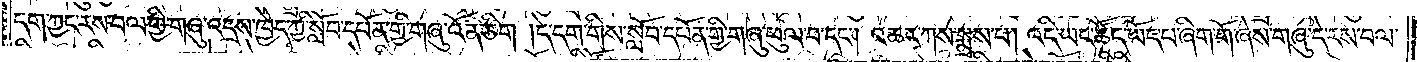དག་ཀྱང་རས་བལ་གྱི་གཞུ་འདྲས་ཁྱེད་ཀྱི་སློབ་དཔོན་གྱི་གཞུ་འོན་ཅིག །དེ་དག་གིས་སློབ་དཔོན་གྱི་གཞུ་ཕུལ་བ་དང༌། འཆར་ཀས་སྨྲས་པ། འདི་ཡང་ཚོད་ཡོད་པ་ཞིག་གོ་ཞེས་གཞུ་དེ་རས་བལ་
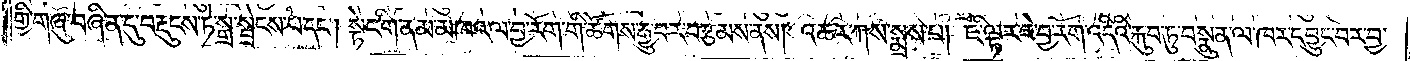གྱི་གཞུ་བཞིན་དུ་བརྡུངས་ཏེ་སྒྲ་སྦྲེངས་པ་དང༌། སྟེང་གི་ནམ་མཁའ་ལ་བྱ་རོག་གི་ཚོགས་རྒྱུ་བར་བརྩམས་ནས། འཆར་ཀས་སྨྲས་པ། ཇི་ལྟར་ཇེ་བྱ་རོག་འདིའི་རྐུབ་ཏུ་བསྣུན་ལ་ཁར་དབྱུང་བར་བྱ་
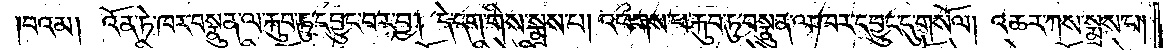བའམ། འོན་ཏེ་ཁར་བསྣུན་ལ་རྐུབ་ཏུ་དབྱུང་བར་བྱ། དེ་དག་གིས་སྨྲས་པ། འཕགས་པ་རྐུབ་ཏུ་བསྣུན་ལ་ཁར་དབྱུང་དུ་གསོལ། འཆར་ཀས་སྨྲས་པ།
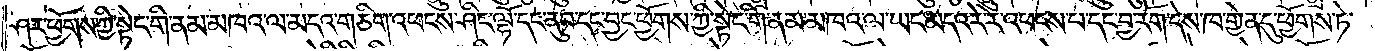ཤར་ཕྱོགས་ཀྱི་སྟེང་གི་ནམ་མཁའ་ལ་མདའ་གཅིག་འཕངས་ཤིང་ལྷོ་དང་ནུབ་དང་བྱང་ཕྱོགས་ཀྱི་སྟེང་གི་ནམ་མཁའ་ལ་ཡང་མདའ་རེ་རེ་འཕངས་པ་དང་བྱ་རོག་དེས་ཁ་གྱེན་དུ་ཕྱོགས་ཏེ་
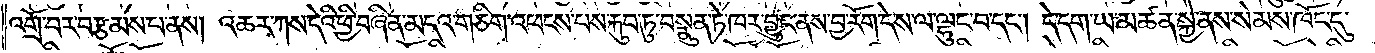འགྲོ་བར་བརྩམས་པ་ནས། འཆར་ཀས་དེའི་ཕྱི་བཞིན་མདའ་གཅིག་འཕངས་པས་རྐུབ་ཏུ་བསྣུན་ཏེ་ཁར་བྱུང་ནས་བྱ་རོག་དེས་ལ་ལྷུང་བ་དང༌། དེ་དག་ཡ་མཚན་སྐྱེ་ནས་སེམས་ཁོང་དུ་
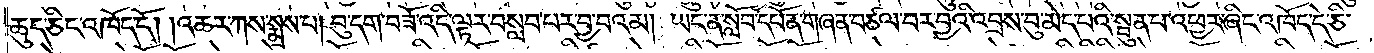ཆུད་ཅིང་འཁོད་དོ། །འཆར་ཀས་སྨྲས་པ། བུ་དག་བཟོ་འདི་ལྟར་བསླབ་པར་བྱ་བའམ། ཡང་ན་སློབ་དཔོན་གཞན་བཙལ་བར་བྱའི་འབྲས་བུ་མེད་པའི་སྦུན་པ་འཕྱར་ཞིང་འཁོད་དེ་ཅི་
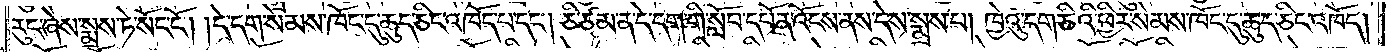རུང་ཞེས་སྨྲས་ཏེ་སོང་ངོ༌། །དེ་དག་སེམས་ཁོང་དུ་ཆུད་ཅིང་འཁོད་པ་དང༌། ཅི་ཙམ་ན་དེ་དག་གི་སློབ་དཔོན་འོངས་ནས་དེས་སྨྲས་པ། ཁྱེའུ་དག་ཅིའི་ཕྱིར་སེམས་ཁོང་དུ་ཆུད་ཅིང་འཁོད།
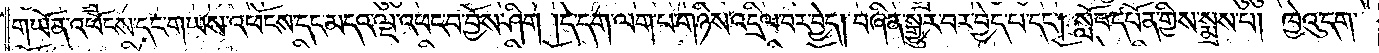གཡོན་འཕོངས་དང་གཡས་འཕོངས་དང་མདའ་ལྔ་འཕང་བ་བྱོས་ཤིག །དེ་དག་ལག་པ་གཉིས་འདྲིལ་བར་བྱེད། བཞིན་སྒྱུར་བར་བྱེད་པ་དང༌། སློབ་དཔོན་གྱིས་སྨྲས་པ། ཁྱེའུ་དག་
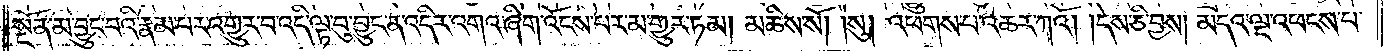སྔོན་མ་བྱུང་བའི་རྣམ་པར་འགྱུར་བ་འདི་ལྟ་བུ་བྱུང་ན་འདིར་འགའ་ཞིག་འོངས་པར་མ་གྱུར་ཏམ། མཆིས་སོ། །སུ། འཕགས་པ་འཆར་ཀའོ། །དེས་ཅི་བྱས། མདའ་ལྔ་འཕངས་པ་
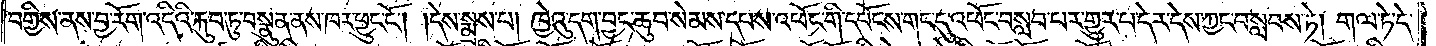བགྱིས་ནས་བྱ་རོག་འདིའི་རྐུབ་ཏུ་བསྣུན་ནས་ཁར་ཕྱུང་ངོ༌། །དེས་སྨྲས་པ། ཁྱེའུ་དག་བྱང་ཆུབ་སེམས་དཔས་འཕོང་གི་དཔོང་ས་གང་དུ་འཕོང་བསླབ་པར་གྱུར་བ་དེར་དེས་ཀྱང་བསླབས་ཏེ། གལ་ཏེ་དེ་
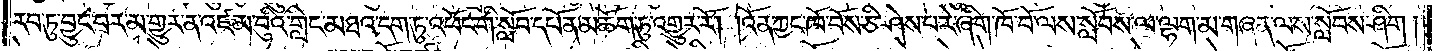རབ་ཏུ་བྱུང་བར་མ་གྱུར་ན་འཛམ་བུའི་གླིང་མཐའ་དག་ཏུ་འཕོང་གི་སློབ་དཔོན་མཆོག་ཏུ་འགྱུར་རོ། །འོན་ཀྱང་ཁོ་བོས་ཅི་ཤེས་པ་རེ་ཞིག་ཁོ་བོ་ལས་སློབས་ལ་ལྷག་མ་གཞན་ལས་སློབས་ཤིག །
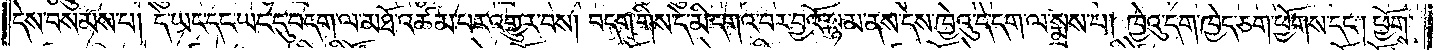དེས་བསམས་པ། དེ་ཡང་དང་ཡང་དུ་བདག་ལ་མཐོ་འཚམ་པར་འགྱུར་བས། བདག་གིས་དེ་མི་དགའ་བར་བྱའོ་སྙམ་ནས་དེས་ཁྱེའུ་དེ་དག་ལ་སྨྲས་པ། ཁྱེའུ་དག་ཁྱེད་ཅག་ཕྱོགས་དང༌། ཕྱོགས་
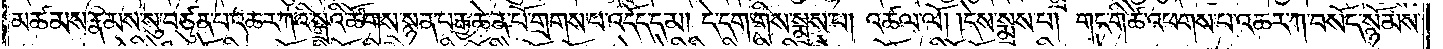མཚམས་རྣམས་སུ་བཙུན་པ་འཆར་ཀའི་སྒྲའི་ཚོགས་སྙན་པ་རྒྱ་ཆེན་པོ་གྲགས་པ་འདོད་དམ། དེ་དག་གིས་སྨྲས་པ། འཚལ་ལོ། །དེས་སྨྲས་པ། གང་གི་ཚེ་འཕགས་པ་འཆར་ཀ་བསོད་སྙོམས་
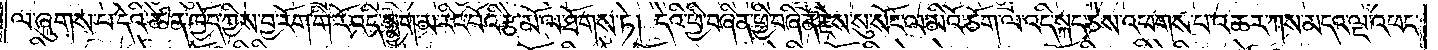ལ་ཞུགས་པ་དེའི་ཚེ་ན་ཁྱོད་ཀྱིས་བྱ་རོག་གི་རོ་འདི་སྨྱུག་མ་རིང་པོའི་རྩེ་མོ་ལ་ཐོགས་ཏེ། དེའི་ཕྱི་བཞིན་ཕྱི་བཞིན་རྗེས་སུ་སོང་ལ་མིའོ་ཅོག་ལ་འདི་སྐད་ཅེས་འཕགས་པ་འཆར་ཀས་མདའ་ལྔ་འཕང་
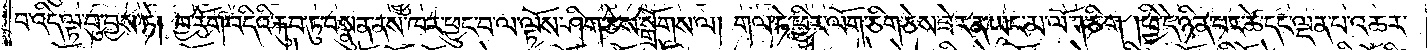བ་འདི་ལྟ་བུ་བྱས་ཏེ། བྱ་རོག་འདིའི་རྐུབ་ཏུ་བསྣུན་ནས་ཁར་ཕྱུང་བ་ལ་ལྟོས་ཤིག་ཅེས་སྒྲོགས་ལ། གལ་ཏེ་ཕྱིར་ལོག་ཅིག་ཅེས་ཟེར་ན་ཡང་མ་ལོག་ཅིག །ཕྱི་དེ་ཉིན་པར་ཚེ་དང་ལྡན་པ་འཆར་
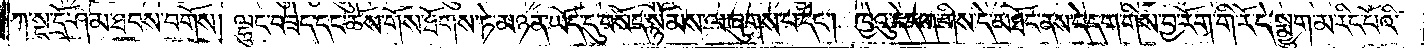ཀ་སྔ་དྲོ་ཤམ་ཐབས་བགོས། ལྷུང་བཟེད་དང་ཆོས་གོས་ཐོགས་ཏེ་མཉན་ཡོད་དུ་བསོད་སྙོམས་ལ་ཞུགས་པ་དང༌། ཁྱེའུ་དེ་དག་གིས་དེ་མཐོང་ནས་དེ་དག་གིས་བྱ་རོག་གི་རོ་དེ་སྨྱུག་མ་རིང་པོའི་
